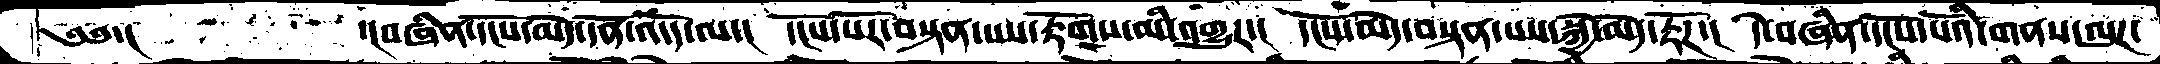༄༅་།        ་།བཞིན་དངོས་མེད་དོན་འདོད་ལ་།  དངོས་པོར་བསྟན་པས་རྟོགས་མི་འགྱུར་།  དངོས་མེད་བསྟན་པས་སྐྱེ་མེད་རྟོཌ་།  དེ་བཞིན་དངོས་པོའི་གནས་ལུཌ་
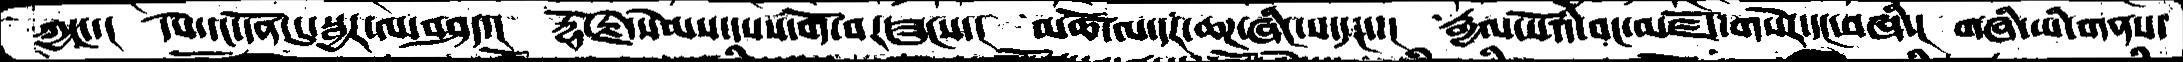ཀྱང་་།   དཔེ་དང་དོན་དུ་སྦྱར་ལ་བཤད་།  རྡོ་རྗེ་སེམས་དཔའ་གོ་བར་ཟུངས་།  མཚོ་ལ་དར་ཆཌ་ཞིང་པ་དང་་།  རྒྱལ་པོའི་བང་མཛོད་གསེར་དང་བཞི་།  གཞི་ཡི་གནས་
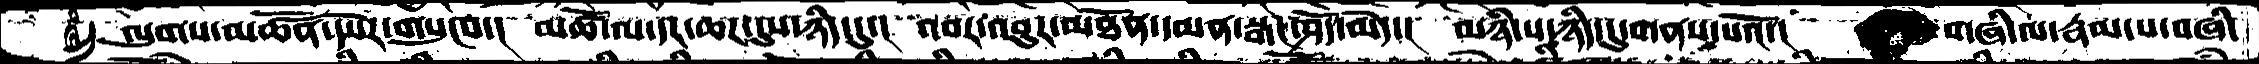ལུགས་མཚོན་དཔེར་གསུངས་། མཚོ་ལ་དར་ཆཌ་དུས་ཉིད་དུ་། འབར་འབུར་མཐོན་དམན་སྒང་ཤོད་མེད་། མཉཾ་པ་ཉིད་དུ་གནས་པའོ་། གཞི་ལ་རྣམ་པ་བཞི་
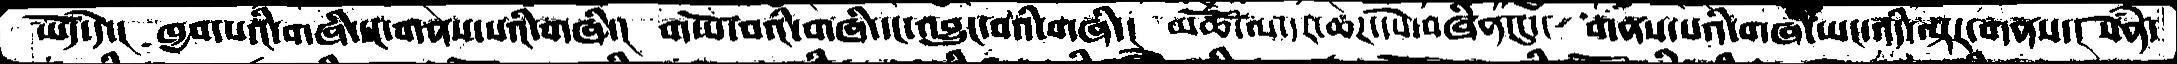ཡོད་དེ་།  ཁྱབ་པའི་གཞི་དང་གནས་པའི་གཞི་།  གཡོ་བའི་གཞི་དང་འབྱུང་བའི་གཞི་།  མཚོ་ལ་དར་ཆཌ་དཔེ་བཞིན་དུ།  གནས་པའི་གཞི་ཡང་འདི་ལྟར་གནས་།  སེཾན་
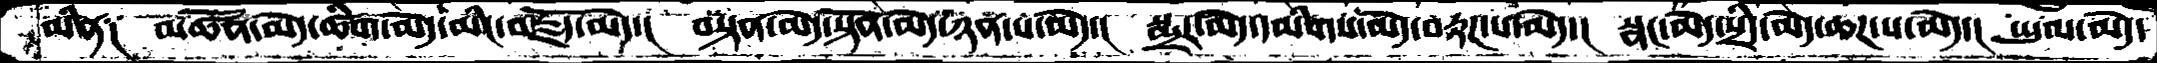མིན་༑   མཚོན་མེད་ཚིག་མེད་མིང་བརྗོད་མེད་།  བསྟན་མེད་སྟོན་མེད་ཉན་པ་མེད་།  སྨྲར་མེད་དམིགས་མེད་བརྟཌ་པ་མེད་།  སྣང་མེད་སྲིད་མེད་ཆཌ་པ་མེད་།  ཡུལ་མེད་
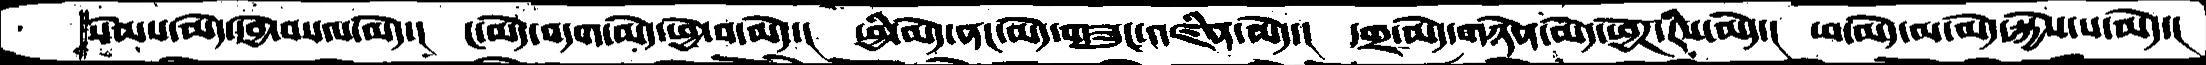སེམས་མེད་དབྱེ་བསལ་མེད་།  ང་མེད་བདག་མེད་ཕྱེ་བ་མེད་།  ཕྱེ་མེད་ནང་མེད་གཟུང་འཛིན་མེད་།  དགྲ་མེད་གཉེན་མེད་ཕྱོཌ་རིས་མེད་།  ཕ་མེད་མ་མེད་སྐྱེས་པ་མེད་།
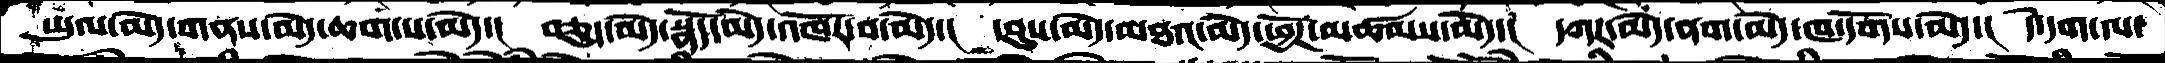ཡུལ་མེད་གནས་མེད་ཆག་པ་མེད་།  བཅུད་མེད་སྣོད་མེད་འཁོར་བ་མེད་།  དབུས་མེད་མཐའ་མེད་ཕྱོཌ་མཚམས་མེད་།  དཀར་མེད་ནག་མེད་ཁ་དོགས་མེད་།  དེ་དག་ལ་
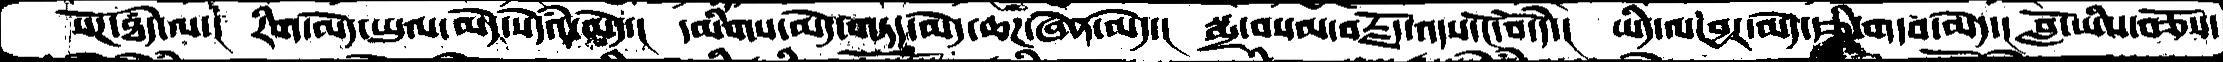སོཌ་ཐཾད་ལ་།  རིག་མེད་ཡུལ་མེད་སེདཾའ་མེད་།  དམིགས་མེད་གཏད་མེད་ཆཌ་ཞེན་མེད་།  སྨྲ་བསམ་བརྗོད་འདས་ངོ་བོ་དེ་།  ཡིད་ལ་བྱར་མེད་རྩི་གདབ་མེད་།  བློ་ཡིས་བཅོས་
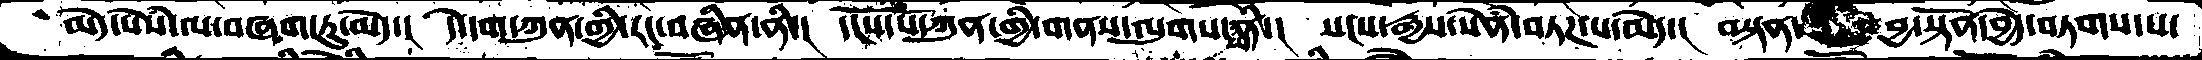མེད་སེཾས་ལ་བཞག་ཏུ་མེད་། དེ་དག་ཀུན་གྱི་རང་བཞིན་ནི་། དངོས་པོ་ཀུན་གྱི་གནས་ལུགས་ནི་། སངས་རྒྱས་སེཾན་བཏཌ་པ་མེད་། བསྟན་བྱ་སྟོན་བྱེད་བཏགས་པ་
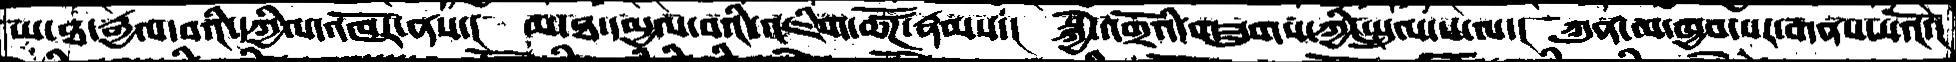ཡ་ཐ་རྒྱལ་བའི་དཀྱིལ་འཁོར་ནས་།  མ་ཐ་དམྱལ་བའི་འཇིག་ཚོཌ་རྣམས་།  སྐྱེ་འགྲོའི་གཟུགས་ཀྱི་སྤྲུལ་པ་ལ་།  ཀུན་ལ་ཁྱབ་པར་གནས་པའོ་།
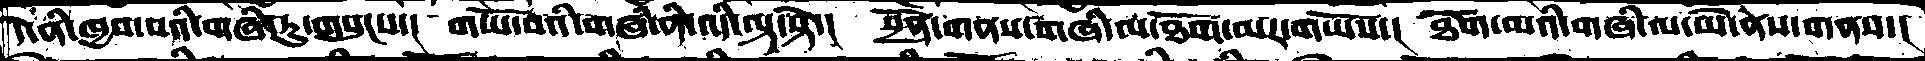དེ་ནི་ཁྱབ་པའི་གཞི་རུ་གསུངས་།  གཡོ་བའི་གཞི་ནི་འདི་ལྟ་སྟེ་།  སྔོན་གནས་གཞི་ལ་ཐོག་མར་གཡོས་།  ཐོག་མའི་གཞི་ལ་ཡེ་ནས་གནས་།
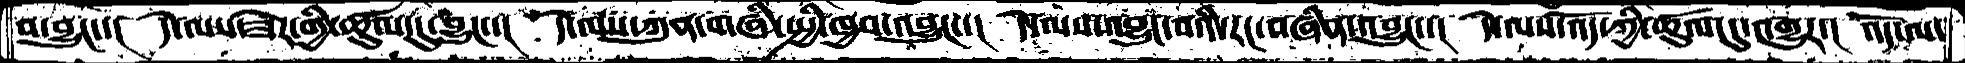བ་བྱུང་།  དེ་ལས་ཟེར་གྱི་ཚུལ་དུ་བྱུང་།  དེ་ལས་ཀུན་གཞི་སྤྱི་ཁྱབ་འབྱུང་།  དེ་ལས་འབྱུང་བའི་རང་བཞིན་འབྱུང་།  དེ་ལས་འོད་ཀྱི་ཚུལ་དུ་འགྱུར་།  འོད་ལ་
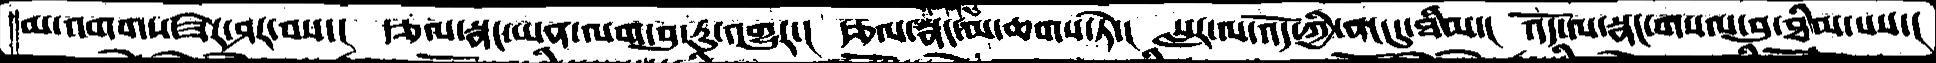མ་འགགས་ཟེར་ཤར་བས་།  རྩལ་སྣང་ཡན་ལག་བུ་རུ་འགྱུར་།  རྩལ་སྣང་མ་ཆགས་ཏེ་།  སླར་ལ་འོད་ཀྱི་ནང་དུ་ཐིམ་།  འོད་ལ་སྣང་གསལ་བུ་ཐིམ་པས་།
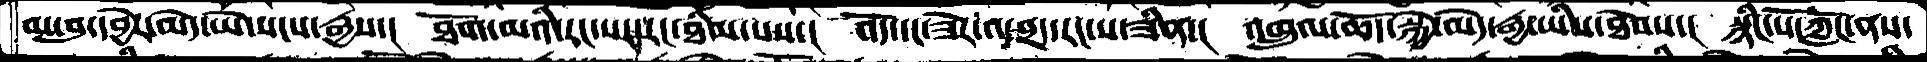མ་བུ་དབྱེར་མེད་ཡེ་སངས་རྒྱས་།  ཐོག་མའི་རང་སར་རང་ཐིམ་པས་།  འོད་དང་ཟེར་འཕྲད་རང་ས་ཟིན་།  འཁྲུལ་ཆོད་སྐྱེ་མེད་རྒྱ་ཡིས་ཐེབས་།  སྙིང་པོ་ཀློང་ནས་
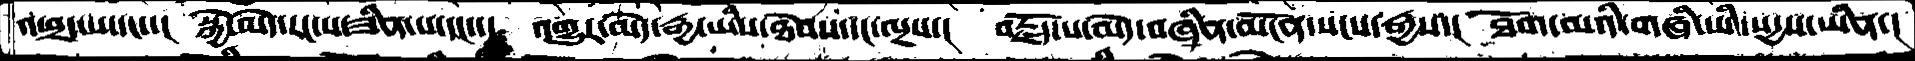འཕྲད་པ་དང་་།  སྐྱེ་མེད་རང་ས་ཟིན་པ་དང་་།  འགྱུར་མེད་རྒྱ་ཡིས་ཐེབས་དང་ལྔས་།  བརྗོད་པ་མེད་བཞིན་མངོན་སངས་རྒྱས་།  ཐོག་མའི་གཞི་ཡི་སདྱས་ཡིན་།
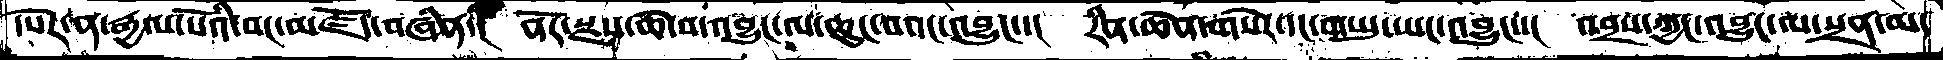དཔེར་ན་རྒྱལ་པོའི་བང་མཛོད་བཞིན་།  ནོར་སྫས་ཆེ་བ་འབྱུང་ལ་ཆུང་བའང་འབྱུང་་།  རིན་ཆེན་གསེར་དང་གཡུ་ཡང་འབྱུང་།  འབྲས་ཀྱང་བྱུང་ལ་སྲན་མ་
